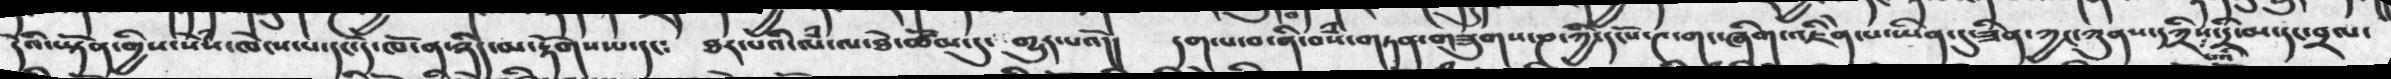དེའི་ཡྟོན་གྱིས་སེཾས་ཁེངས་པ་དང་དེ་ཁོ་ན་ཉིད་མ་རྟོགསཔ་དང༴   ཐར་པའི་ལཾ་ལ་ཐེ་ཚོམ་དུ་  གྱུར་པའོ།།  དག་པ་བ་ནི་བསཾ་གཏན་གཟུགས་ཎ་ཀྱི་དངོས་༤་གང་ཞིག་འཇིེན་པ་ཡིན་དུ་ཟིན་ཀྱང་ཀུནས་དཀྲིས་པའི་དྲི་མ་དང་བྲལ་
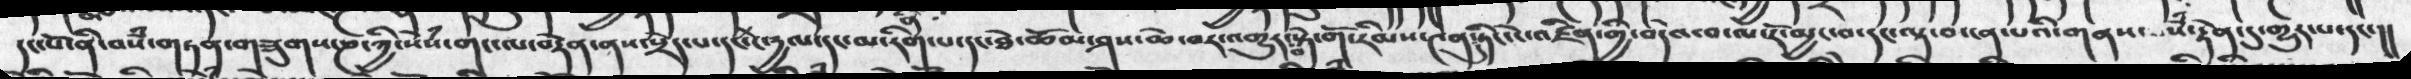དང་པོ་ནི་བསམ་གཏན་གཟུགས་ཎ་ཀྱི་སེཾས་གང་ལ་བརྟེན་ནས་སྲེད་པ་དང་ང་དྱལ་དང་མ་རིག་པ་དང་ཐེ་ཚོམ་ཤས་ཆེ་བར་འགྱུར་བ་སྟེ་གོ་རིམས་༤ན་དུ་ཏིང་ངེ་འཛིན་གྱི་བདེའ་བ་ལ་རོ་མྱང་བ་དང་ལྟ་བ་ངན་པའི་གནས་  སཾ་རྟེན་དུ་གྱུར་པ་དང་།།
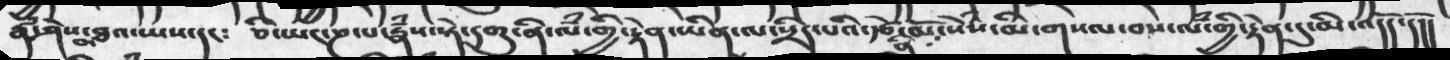རྣཾ་ཤེས་མཐའ་ཡས་དང༴  ཅི་ཡང་ཎ་པ་རྣཾས་སྟེ་དགུ་ནི་ལཾ་གྱི་རྟེན་ཡིན་ལ་སྲིད་པའི་རྩེ་མོ་ནི་སེཾས་མི་གསལ་བས་ལཾ་གྱི་རྟེན་དུ་མི་འདོད་དོ།།
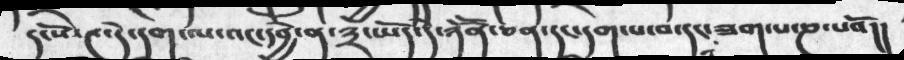དངོས་༤་དེ་དག་ལ་འང་དབྱེ་ན་༣་ཡོད་དེ་ཉོོན་ཅན་དང་དག་པ་བ་དང་ཟག་པ་ཎ་པའོ།།
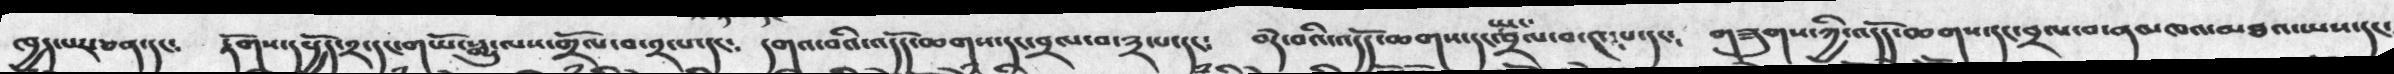ཁྱད་པར་ཅན་དང༴  རྟོགས་དཔྱོད་༢་དང་གཡོ་སྒྱུ་ལས་གྲོལ་བ་༢་པ་དང༴   དགའ་བའི་འདོད་ཆགས་དང་བྲལ་བ་༣་པ་དང༴  བདེ་བའི་འདོད་ཆགས་དང་ཡང་བྲལ་བ་༤་པ་དང༴  གཟུགས་ཀྱི་འདོད་ཆགས་དང་བྲལ་བ་ནམཁའ་མཐའ་ཡས་དང་
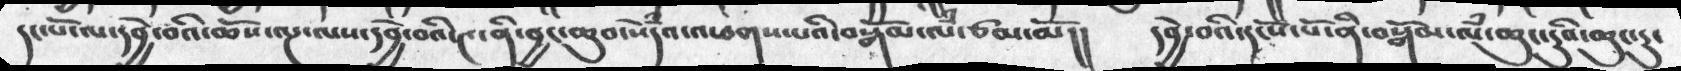དང་པོ་ལ་དབྱེ་བའི་ཆོས་ལྔ་ལས་དབྱེ་བའི་༤་ནི་བྱང་ཆུབ་སེཾདའ་འཕགས་པའི་བསྒོམ་ལཾ་ཙམ་མོ།།  དབྱེ་བའི་དངོས་པོ་ནི་བསྒོམ་ལཾ་ཆུང་ངུའི་ཆུང་ངུ་
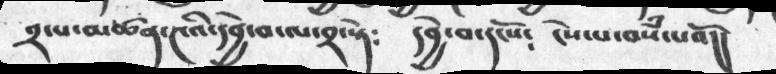༢་པ་མཚན་༤འི་དབྱེ་བ་ལ་༢་སྟེ༴    དབྱེ་བ་དང་པོ༴   ངེས་པ་བསཾ་པའོ།།
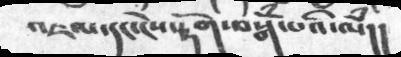འཇལ་དང་ངེས་རྟོག་བསྒོཾ་པའི་ལཾ།།
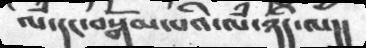ལ་དང་བསྒོམ་པའི་ལཾ་ཉིད་ལ།།
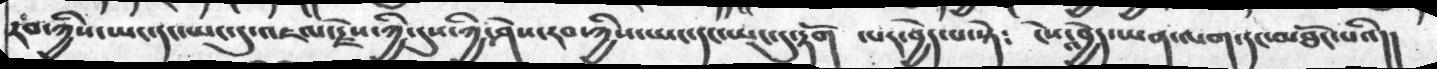རབ་ཀྱིས་ཡང་དང་ཡང་དུ་འཇལ་རྗེས་ཀྱི་དུས་ཀྱི་ཤེསརབ་ཀྱིས་ཡང་དང་ཡང་དུ་རྟོག  ་པར་བྱེད་པ་སྟེ༴  ངེས་འབྱེད་ཡན་ལག་དང་མཐོང་པའི།།
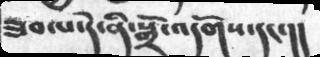ཟབ་པ་དེ་ནི་སྒྲོ་འདོགས་དང་།།
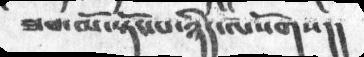ཟབ་མོ་སྟོང་པ་ཉིད་ལསོགས།།
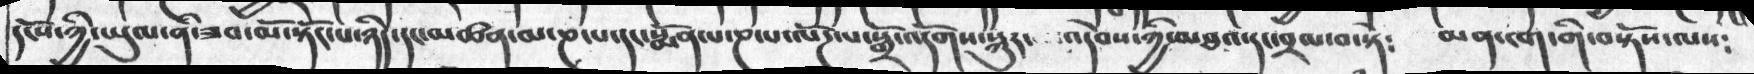དངོས་ཀྱི་ཡུལ་ནི་ཟབ་མོ་སྟོང་པ་ཉིད་དང་མཚན་མ་ཎ་པ་དང་སྨོན་པ་ཎ་པ་ལོཌ་པ་སྒྲོ་འདོགས་སྐུར་   འདེབས་ཀྱི་མཐའ་དང་བྲལ་བ་སྟེ༴   མན་ངག་གི་བསྟོས་ལས༴
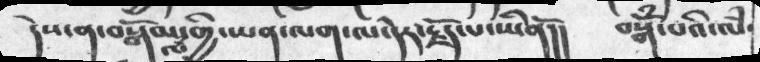དེས་ན་བསྒོམ་ལཾ་གྱི་ཡན་ལག་ལ་དེར་རྗོད་པ་ཡིནོ།།   བསྒོཾ་པའི་ལཾ་
